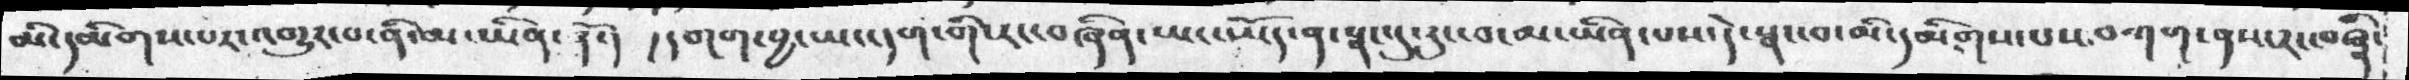མི་དམིགས་པར་འགྱུར་པ་ནི་མ་ཡིན་ནོ་།   །དགག་བྱ་ཡང་དག་གི་རང་བཞིན་ཡང་ཡོད་ན་སྣང་དུ་རུང་བ་མ་ཡིན་པས་དེ་སྣང་བ་མི་དམིགས་པས་བཀག་ནས་རང་བཞིན་
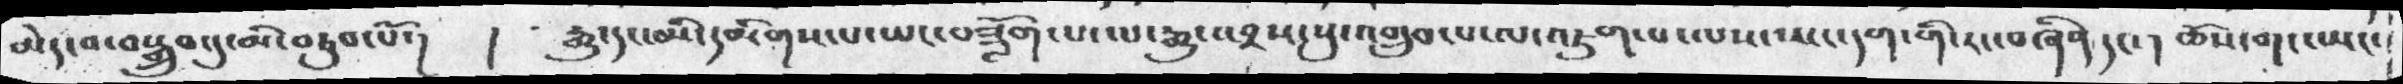མེད་པ་བསྒྲུབ་དུ་མི་གཏུབ་པོ་།   །   རྒྱུ་དང་མི་དམིགས་པ་ཡང་བཟློག་པ་ལ་རྒྱུ་འབྲས་སུ་འགྲུབ་པ་ལ་འཇུག་པ་ལས་ཡང་དག་གི་རང་བཞིན་དང་། ཆོས་གང་ཡང་
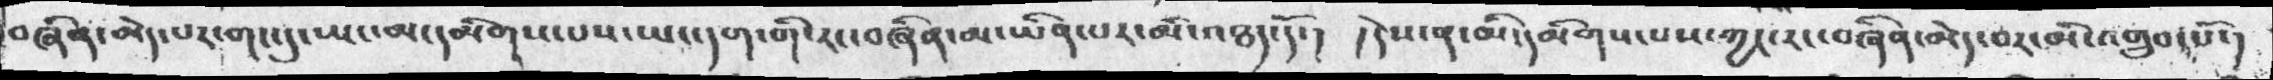བཞིན་མེད་པར་གང་དུ་ཡང་མ་དམིགས་པས་ཡང་དག་གི་རང་བཞིན་མ་ཡིན་པར་མི་འཐད་དོ་།  །དེས་ན་མི་དམིགས་པས་ཀྱང་རང་བཞིན་མེད་པར་མི་འགྲུབ་པོ་།
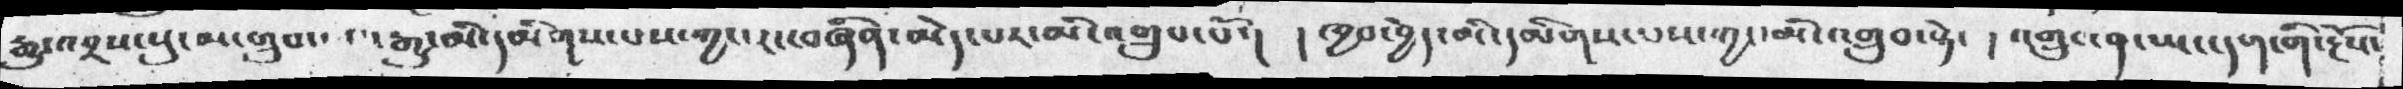རྒྱུ་འབྲས་སུ་མ་གྲུབ་  རྒྱུ་མི་དམིགས་པས་ཀྱང་རང་བཞིན་མེད་པར་མི་འགྲུབ་པོ་།  ། ཁྱབ་བྱེད་མི་དམིགས་པས་ཀྱང་མི་འགྲུབ་སྟེ་  ། འགྲུབ་ན་ཡང་དག་གི་རྔོས་
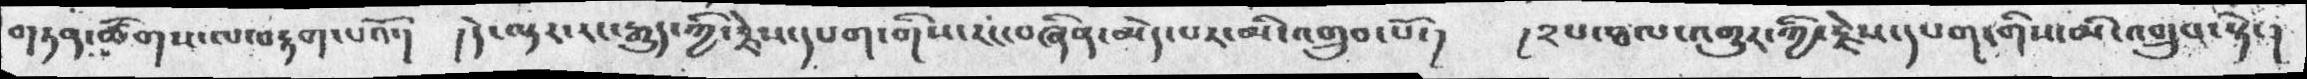གཏན་ཚིགས་ལ་བརྟག་པའོ་། །དེ་ལྟར་རང་རྒྱུད་ཀྱི་རྗེས་དཔག་གིས་རང་བཞིན་མེད་པར་མི་འགྲུབ་པོ།  ། ༢པ་ཐལ་འགྱུར་གྱི་རྗེས་དཔག་གིས་མི་འགྲུབ་སྟེ་།
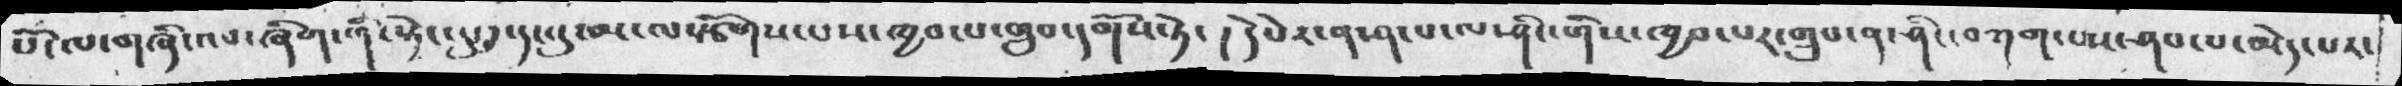པོ་ལ་གཞི་འབ་ཞིག་གི་སྟེར་དུ་༡་དང་དུ་མ་ལསྩོགས་པས་ཁྱབས་པ་གྲུབ་དགོས་ཏེ་  །དཔེར་ན་ཤ་པ་ལ་ཤིང་གིས་ཁྱབ་པར་གྲུབ་ན་ཤིང་བཀག་པས་ཤབ་པ་མེད་པར་
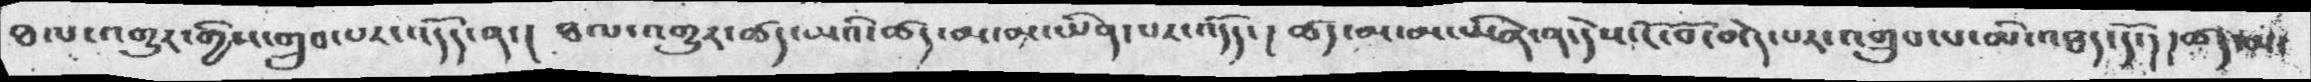ཐལ་འགྱུར་གྱིས་གྲུབ་པར་འདོད་ན་།  ཐལ་འགྱུར་ཚད་མའི་ཚད་མ་མ་ཡིན་པར་འདོད་།  ཚད་མ་མ་ཡིན་ན་དེས་ངོ་བོ་མེད་འགྲུབ་པ་མི་འཐད་དོ་། །ཚད་མ་
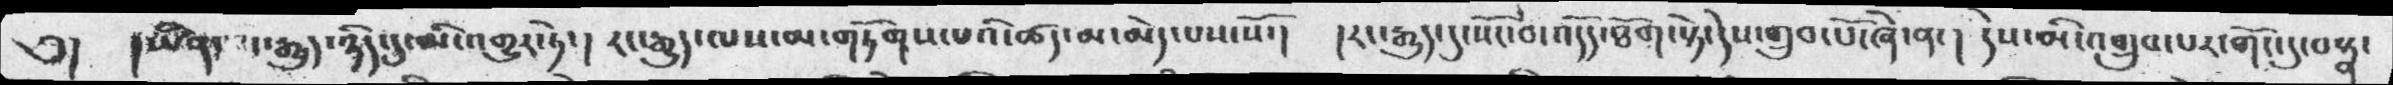༄།  །ཡིན་པ་རྒྱུད་ཉིད་དུ་མི་འགྱུར་ཏེ་། རང་རྒྱུད་ལས་མ་གཏོགས་པའི་ཚད་མ་མེད་པས་སོ་།  །རང་རྒྱུད་དུ་སོང་བ་འདོད་ཐོག་སྟེ་དེས་གྲུབ་པོ་ཞེ་ན་། དེས་མིང་འགྲུབ་པར་གོང་དདུ་བསྟན་
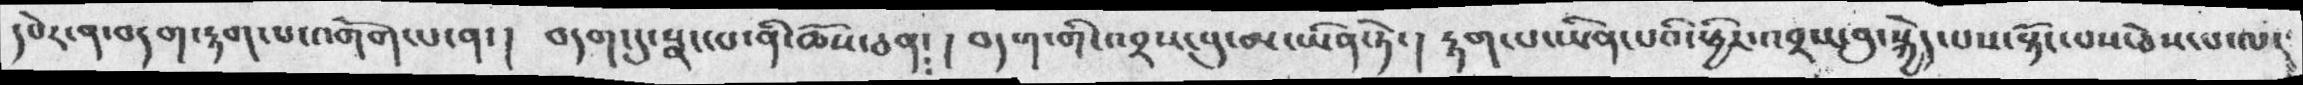དཔེར་ན་བདག་རྟག་པ་འགོག་པ་ན་།  བདག་དུ་སྣང་པ་ནི་ཆོས་ཅན་།  བདག་གི་འབྲས་བུ་མ་ཡིན་ཏེ་།  རྟག་པ་ཡིན་པའི་ཕྱིར་འབྲས་བུ་སྐྱེད་པས་སྟོང་པས་ཅེས་པ་ལ་
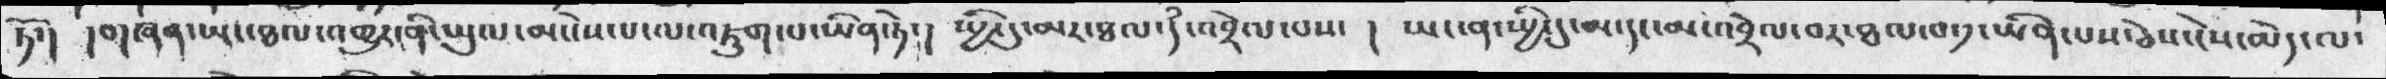ཏོ་། །གཞན་ཡང་ཐལ་འགྱུར་ནི་ཡུལ་མ་ངེས་པ་ལ་འཇུག་པ་ཡིན་ཏེ་། སྤྱི་དུ་མར་ཐལ་དཾ་འབྲེལ་པས་ ། ཡང་ན་སྤྱི་དུ་མ་དང་འབྲེལ་བར་ཐལ་བ་༡་ཡིན་པས་ཅེས་ངེས་མེད་ལ་
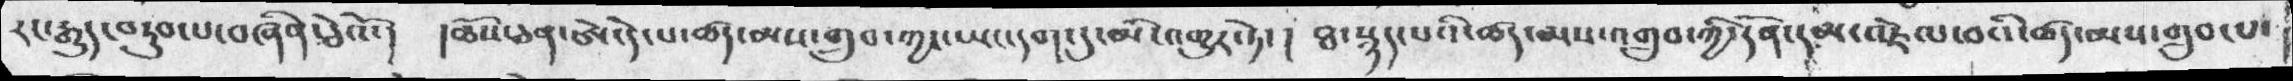རང་རྒྱུད་བཏུབ་པ་བཞིན་ཅེའོ་། །ཆོས་ཅན་ཨེ་དེ་པ་ཚད་མས་གྲུབ་ཀྱང་ཡང་དག་དུ་མི་འགྱུར་ཏེ་།  ཐ་སྙད་པའི་ཚད་མས་འགྲུབ་ཀྱི་དོན་དམ་འཇལ་བའི་ཚད་མས་གྲུབ་པ་
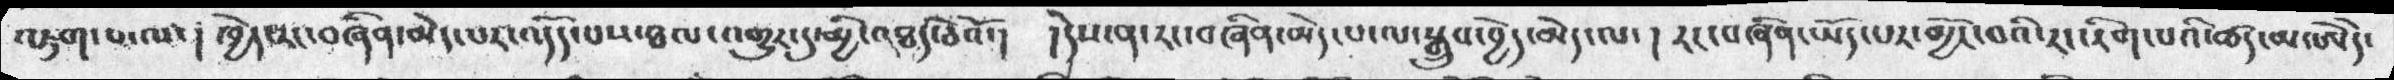འཇུག་པ་ལ་ ། ཁྱེད་རང་བཞིན་མེད་པར་འདོད་པས་ཐལ་འགྱུར་དུ་མྱི་འཐད་ཅེའོ་།  །དེས་ན་རང་བཞིན་མེད་པ་ལ་སྒྲུབ་བྱེད་མེད་ལ་། རང་བཞིན་ཡོད་པར་མྱོང་བའི་རང་རིག་པའི་ཚད་མ་ཨེེད་
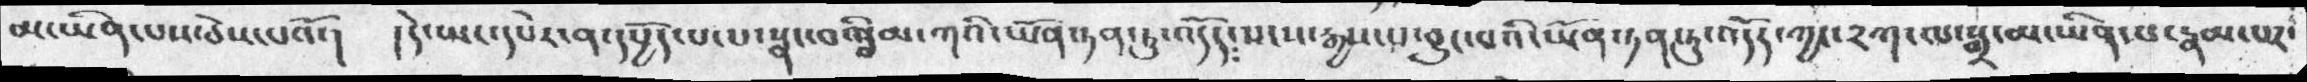མ་ཡིན་པས་ཅེས་པའོ་།  །དེ་ཡང་དཔེར་ན་དཔྱོད་པ་པ་སྣང་བའི་བདམ་ཀའི་ཡོན་ཏན་ཏུ་འདོད་སངས་རྒྱས་པ་བྱུང་བའི་ཡོན་ཏན་ཏུ་འདོད་ཀྱང་༢ཀ་ལ་སྒྲ་མ་ཡིན་པ་རྣམ་པར་
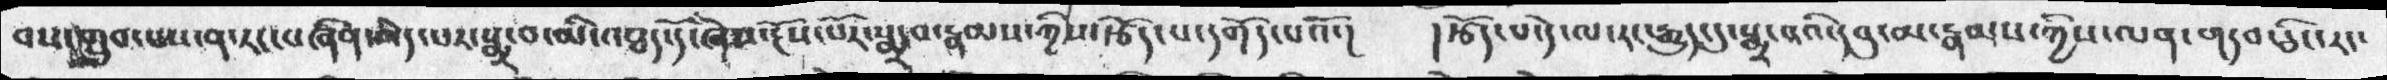བས་གྲུབ་པས་ན་རང་བཞིན་མེད་པར་སྨྲ་བ་མི་འཐད་དོ་ཞེས་རྔོས་པོར་སྨྲ་བ་རྣམས་ཀྱིས་རྩོད་པ་དགོད་པའོ་། །རྩོད་པ་དེ་ལ་རང་རྒྱུད་དུ་སྨྲ་བའི་དབུ་རྣམས་ཀྱིས་ལན་གདབ་ཅིང་རང་
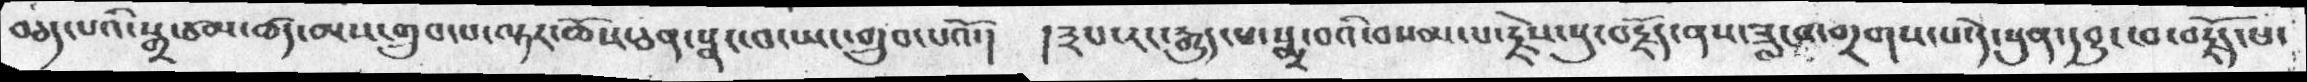བཅད་པའི་སྒྲ་ཙམ་ཚད་མས་གྲུབ་པ་ལྟར་ཆོས་ཅན་སྣང་བ་ཡང་གྲུབ་པའོ་།  །༣པ་རང་རྒྱུད་པ་སྨྲ་བའི་བསམ་པ་རྗེས་སུ་བརྗོད་ནས་ཟླ་བ་གྲགས་པ་དེ་སུན་དབྱུང་བ་བརྗོད་པ་
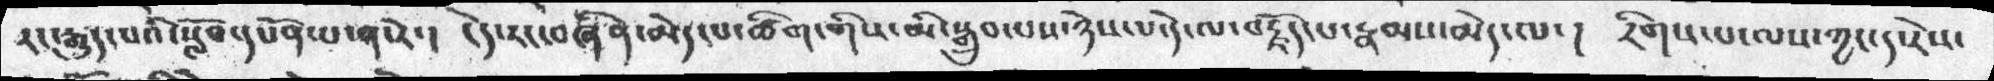རང་རྒྱུད་པའི་སློབ་དཔོན་པ་ན་རེ་།  ངེས་རང་བཞིན་མེད་པ་ཚིག་གིས་མི་སྒྲུབ་པས་ཉེས་པ་དེ་ལ་བརྗོད་པ་རྣམས་མེད་ལ་།  རིགས་པ་ལས་ཀྱང་ད་རེས་
